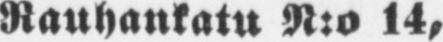Rauhankatu N:o 14,
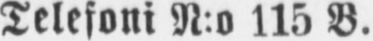Telefoni N:o 115 B.
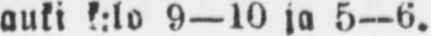auki k:lo 9—10 ja 5—6.
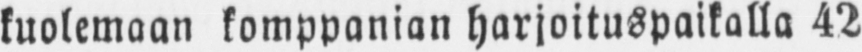kuolemaan komppanian harjoituspaikalla 42
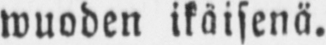wuoden ikäisenä.
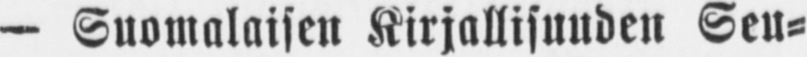— Suomalaisen Kirjallisuuden Seu-
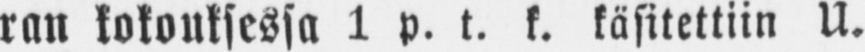ran kokouksessa 1 p. t. k. käsitettiin U.
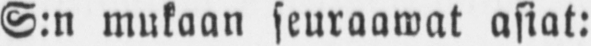S.n mukaan seuraawat asiat:
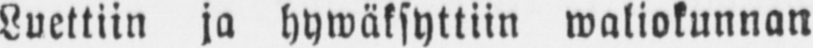Luettiin ja hywäksyttiin waliokunnan
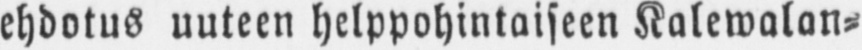ehdotus uuteen helppohintaiseen Kalewalan-
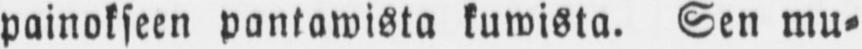painokseen pantawista kuwista. Sen mu-
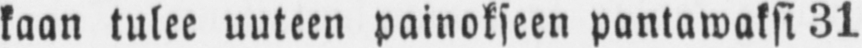kaan tulee uuteen painokseen pantawaksi 31
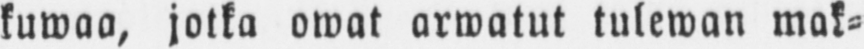kuwaa, jotka owat arwatut tulewan mak-
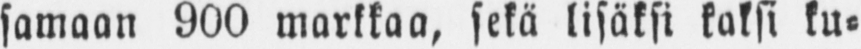samaan 900 markkaa, sekä lisäksi kaksi ku-
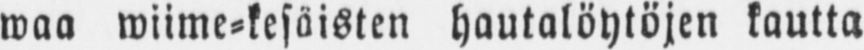waa wiime-kesäisten hautalöytöjen kautta
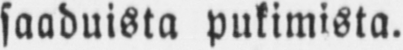saaduista pukimista.
